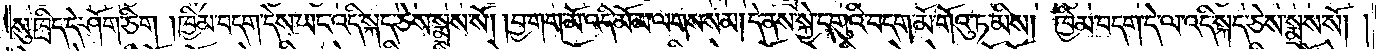སུ་ཁྲིད་དེ་ཤོག་ཅིག །ཁྱིམ་བདག་དེས་ཡང་འདི་སྐད་ཅེས་སྨྲས་སོ། །བྱ་གག་མོ་འདི་མོ་མ་ལགས་སམ། དེ་ནས་སྐྱེ་དགུའི་བདག་མོ་གོའུ་ཏ་མིས། ཁྱིམ་བདག་དེ་ལ་འདི་སྐད་ཅེས་སྨྲས་སོ། །
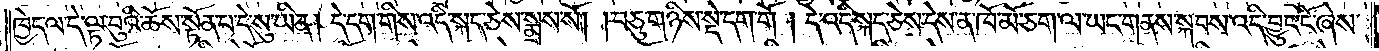ཁྱེད་ལ་དེ་ལྟ་བུའི་ཆོས་སྟོན་པ་དེ་སུ་ཡིན། དེ་དག་གིས་འདི་སྐད་ཅེས་སྨྲས་སོ། །བཅུ་གཉིས་སྡེ་དག་གོ །དེ་འདི་སྐད་ཅེས་དེས་ན་ཁོ་མོ་ཅག་ལ་ཡང་གནས་སྐབས་འདི་བྱུང་ངོ་ཞེས་
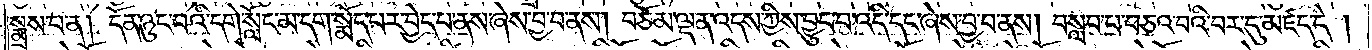སྨྲས་པ་ན། དོན་ཉུང་བའི་དགེ་སློང་མ་དག་སྨོད་པར་བྱེད་པ་ནས་ཞེས་བྱ་བ་ནས། བཅོམ་ལྡན་འདས་ཀྱིས་བྱུང་བ་འདི་དང་ཞེས་བྱ་བ་ནས། བསླབ་པ་བཅའ་བའི་བར་དུ་མཛད་དེ་།
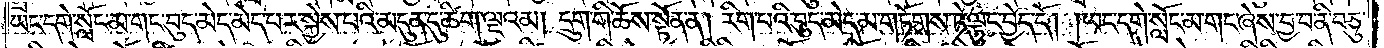ཡང་དགེ་སློང་མ་གང་བུད་མེད་མེད་པར་སྐྱེས་པའི་མདུན་དུ་ཚིག་ལྔའམ། དྲུག་གི་ཆོས་སྟོན་ན། རིག་པའི་བུད་མེད་མ་གཏོགས་ཏེ་ལྟུང་བྱེད་དོ། །ཡང་དགེ་སློང་མ་གང་ཞེས་བྱ་བ་ནི་བཅུ་
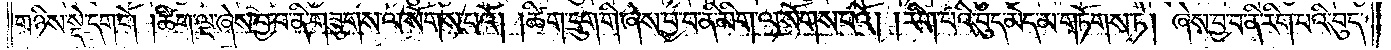གཉིས་སྡེ་དག་གོ །ཚིག་ལྔ་ཞེས་བྱ་བ་ནི་གཟུགས་ལ་སོགས་པའོ། །ཚིག་དྲུག་གི་ཞེས་བྱ་བ་ནི་མིག་ལ་སོགས་པའོ། །རིག་པའི་བུད་མེད་མ་གཏོགས་ཏེ། ཞེས་བྱ་བ་ནི་རིག་པའི་བུད་
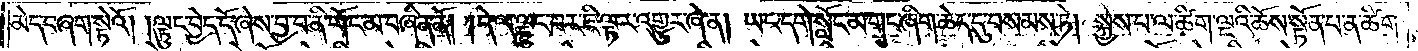མེད་བཞག་སྟེའོ། །ལྟུང་བྱེད་དོ་ཞེས་བྱ་བ་ནི་གོང་མ་བཞིན་ནོ། །དེ་ལ་ལྟུང་བར་ཇི་ལྟར་འགྱུར་ཞེ་ན། ཡང་དགེ་སློང་མ་གང་ཞིག་ཆེད་དུ་བསམས་ཏེ། སྐྱེས་པ་ལ་ཚིག་ལྔའི་ཆོས་སྟོན་པ་ན་ཚིག་
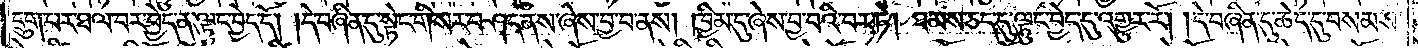དྲུག་པར་ཐལ་བར་བྱེད་ན་ལྟུང་བྱེད་དོ། །དེ་བཞིན་དུ་སྟེང་གི་སར་བཤད་ནས་ཞེས་བྱ་བ་ནས། ཁྱིམ་དུ་ཞེས་བྱ་བའི་བར་ཏེ། ཐམས་ཅད་དུ་ལྟུང་བྱེད་དུ་འགྱུར་རོ། །དེ་བཞིན་དུ་ཆེད་དུ་བསམས་
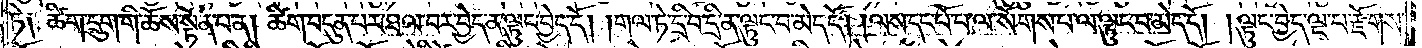ཏེ༑ ཚིག་དྲུག་གི་ཆོས་སྟོན་པ་ན། ཚིག་བདུན་པར་ཐལ་བར་བྱེད་ན་ལྟུང་བྱེད་དོ། །གལ་ཏེ་དྲི་བ་དྲི་ན་ལྟུང་བ་མེད་དོ། །ལས་དང་པོ་པ་ལ་སོགས་པ་ལ་ལྟུང་བ་མེད་དོ། །ལྟུང་བྱེད་ལྔ་པ་རྫོགས་
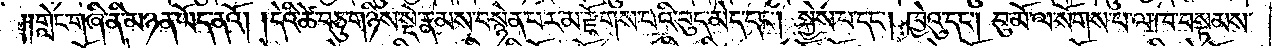གླེང་གཞི་ནི་མཉན་ཡོད་ནའོ། །དེའི་ཚེ་བཅུ་གཉིས་སྡེ་རྣམས་བསྙེན་པར་མ་རྫོགས་པའི་བུད་མེད་དང༌། སྐྱེས་པ་དང༌། ཁྱེའུ་དང༌། བུ་མོ་ལ་སོགས་པ་ལ་ཁ་བསྟམས་
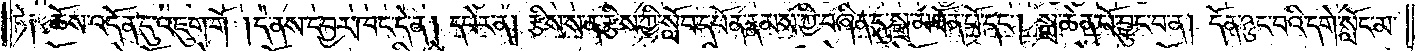ཏེ༑ ཆོས་འདོན་དུ་འཇུག་གོ །དེ་ནས་དབྱར་ཁང་དེ་ན། དཔེར་ན། རྩིས་ས་ན་རྩིས་ཀྱི་སློབ་དཔོན་རྣམས་ཀྱི་བཞིན་དུ་སྒྲ་མཐོན་པོ་དང༌། སྒྲ་ཆེན་པོ་བྱུང་བ་ན། དོན་ཉུང་བའི་དགེ་སློང་མ་
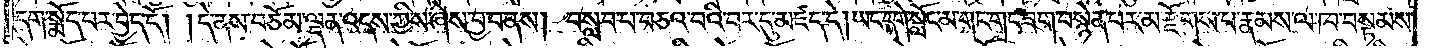དག་སྨོད་པར་བྱེད་དོ། །དེ་ནས་བཅོམ་ལྡན་འདས་ཀྱིས་ཞེས་བྱ་བ་ནས། བསླབ་པ་བཅའ་བའི་བར་དུ་མཛད་དེ། ཡང་དགེ་སློང་མ་གང་གང་ཟག་བསྙེན་པར་མ་རྫོགས་པ་རྣམས་ལ་ཁ་བསྟམས་
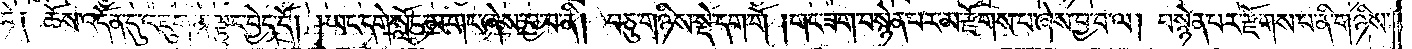ཏེ༑ ཆོས་འདོན་དུ་འཇུག་ན་ལྟུང་བྱེད་དོ། །ཡང་དགེ་སློང་མ་གང་ཞེས་བྱ་བ་ནི། བཅུ་གཉིས་སྡེ་དག་གོ །གང་ཟག་བསྙེན་པར་མ་རྫོགས་པ་ཞེས་བྱ་བ་ལ། བསྙེན་པར་རྫོགས་པ་ནི་གཉིས་
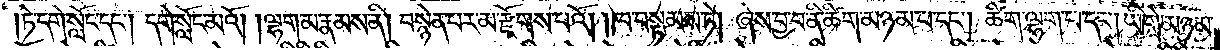ཏེ་དགེ་སློང་དང༌། དགེ་སློང་མའོ། །ལྷག་མ་རྣམས་ནི། བསྙེན་པར་མ་རྫོགས་པའོ། །ཁ་བསྟམས་ཏེ། ཞེས་བྱ་བ་ནི་ཚིག་མཉམ་པ་དང༌། ཚིག་ལྷག་པ་དང༌། ཡི་གེ་མཉམ་
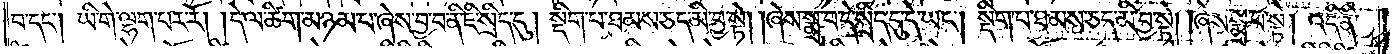བ་དང༌། ཡི་གེ་ལྷག་པར་རོ། །དེ་ལ་ཚིག་མཉམ་པ་ཞེས་བྱ་བ་ནི་ཇི་སྲིད་དུ། སྡིག་པ་ཐམས་ཅད་མི་བྱ་སྟེ། །ཞེས་སྨྲ་བ་དེ་སྲིད་དུ་དེ་ཡང༌། སྡིག་པ་ཐམས་ཅད་མི་བྱ་སྟེ། །ཞེས་སྨྲ་བ་སྟེ། འདི་ནི་
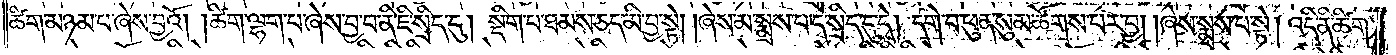ཚིག་མཉམ་པ་ཞེས་བྱའོ། །ཚིག་ལྷག་པ་ཞེས་བྱ་བ་ནི་ཇི་སྲིད་དུ། སྡིག་པ་ཐམས་ཅད་མི་བྱ་སྟེ། །ཞེས་མ་སྨྲས་པ་དེ་སྲིད་དུ་དེ། དགེ་བ་ཕུན་སུམ་ཚོགས་པར་བྱ། །ཞེས་སྨྲས་པ་སྟེ། འདི་ནི་ཚིག་
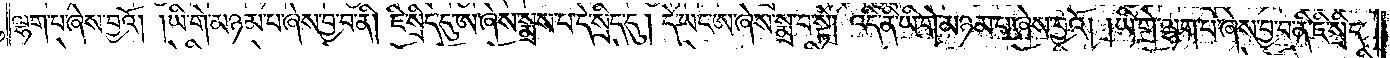ལྷག་པ་ཞེས་བྱའོ། །ཡི་གེ་མཉམ་པ་ཞེས་བྱ་བ་ནི། ཇི་སྲིད་དུ་ཨ་ཞེས་སྨྲས་པ་དེ་སྲིད་དུ། དེ་ཡང་ཨ་ཞེས་སྨྲ་བ་སྟེ། འདི་ནི་ཡི་གེ་མཉམ་པ་ཞེས་བྱའོ། །ཡི་གེ་ལྷག་པ་ཞེས་བྱ་བ་ནི་ཇི་སྲིད་
